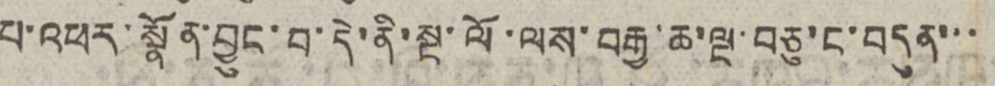པ་འཕར་སྣོན་བྱུང་བ་དེ་ནི་སྔ་ལོ་ལས་བརྒྱ་ཆ་ལྔ་བཅུ་ང་བདུན་་་
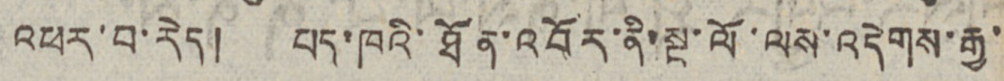འཕར་བ་རེད། པད་ཁའི་ཐོན་འབོར་ནི་སྔ་ལོ་ལས་འདེགས་རྒྱ་
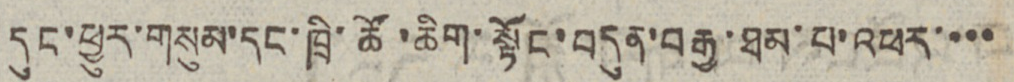དུང་ཕྱུར་གསུམ་དང་ཁྲི་ཚོ་ཆིག་སྟོང་བདུན་བརྒྱ་ཐམ་པ་འཕར་་་་
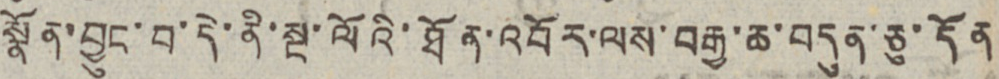སྣོན་བྱུང་བ་དེ་ནི་སྔ་ལོའི་ཐོན་འབོར་ལས་བརྒྱ་ཆ་བདུན་ཅུ་དོན
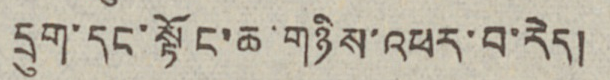དྲུག་དང་སྟོང་ཆ་གཉིས་འཕར་བ་རེད།
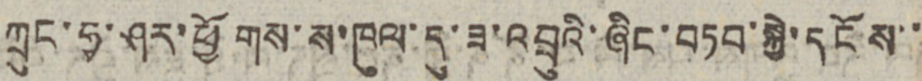ཀྲུང་ཧྭ་ཤར་ཕྱོགས་ས་ཁུལ་དུ་ཟ་འབྲུའི་ཞིང་བཏབ་སྐྱེ་དངོས་་
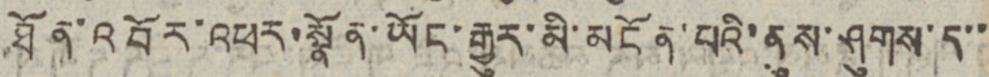ཐོན་འབོར་འཕར་སྣོན་ཡོང་རྒྱུར་མི་མངོན་པའི་ནུས་ཤུགས་ད་་
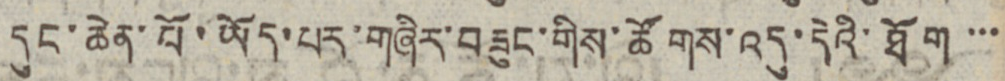དུང་ཆེན་པོ་ཡོད་པར་གཞིར་བཟུང་གིས་ཚོགས་འདུ་དེའི་ཐོག་་་
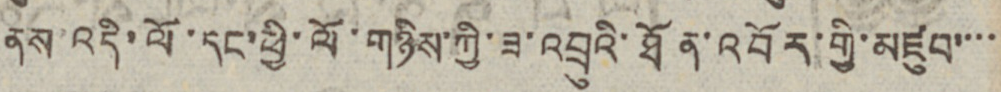ནས་འདི་ལོ་དང་ཕྱི་ལོ་གཉིས་ཀྱི་ཟ་འབྲུའི་ཐོན་འབོར་གྱི་མཛུབ་་་་
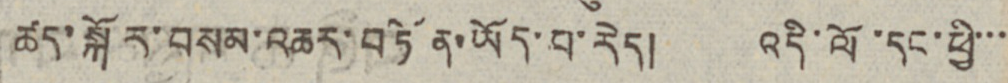ཚད་སྐོར་བསམ་འཆར་བཏོན་ཡོད་པ་རེད། འདི་ལོ་དང་ཕྱི་་་
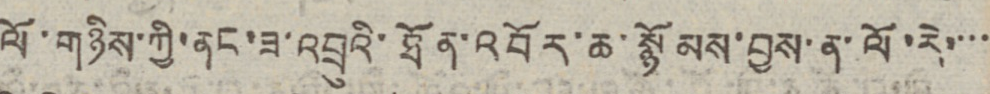ལོ་གཉིས་ཀྱི་ནང་ཟ་འབྲུའི་ཐོན་འབོར་ཆ་སྙོམས་བྱས་ན་ལོ་རེ་་་་
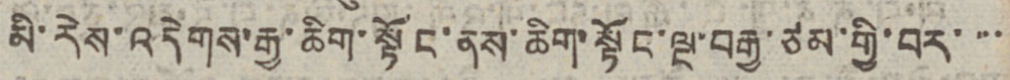མི་རེས་འདེགས་རྒྱ་ཆིག་སྟོང་ནས་ཆིག་སྟོང་ལྔ་བརྒྱ་ཙམ་གྱི་བར་་་་
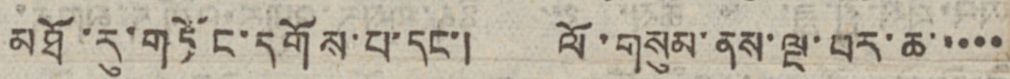མཐོ་རུ་གཏོང་དགོས་པ་དང་། ལོ་གསུམ་ནས་ལྔ་བར་ཆ་་་་་
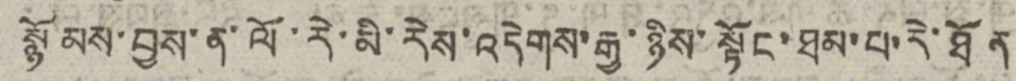སྙོམས་བྱས་ན་ལོ་རེ་མི་རེས་འདེགས་རྒྱ་ཉིས་སྟོང་ཐམ་པ་རེ་ཐོན
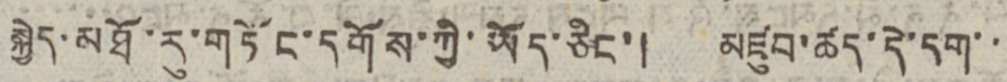སྐྱེད་མཐོ་རུ་གཏོང་དགོས་ཀྱི་ཡོད་ཅིང་། མཛུབ་ཚད་དེ་དག་་
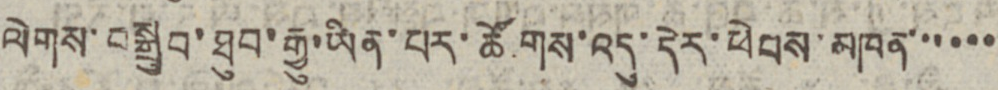ལེགས་བསྒྲུབ་ཐུབ་རྒྱུ་ཡིན་པར་ཚོགས་འདུ་དེར་ཕེབས་མཁན་་་་་
